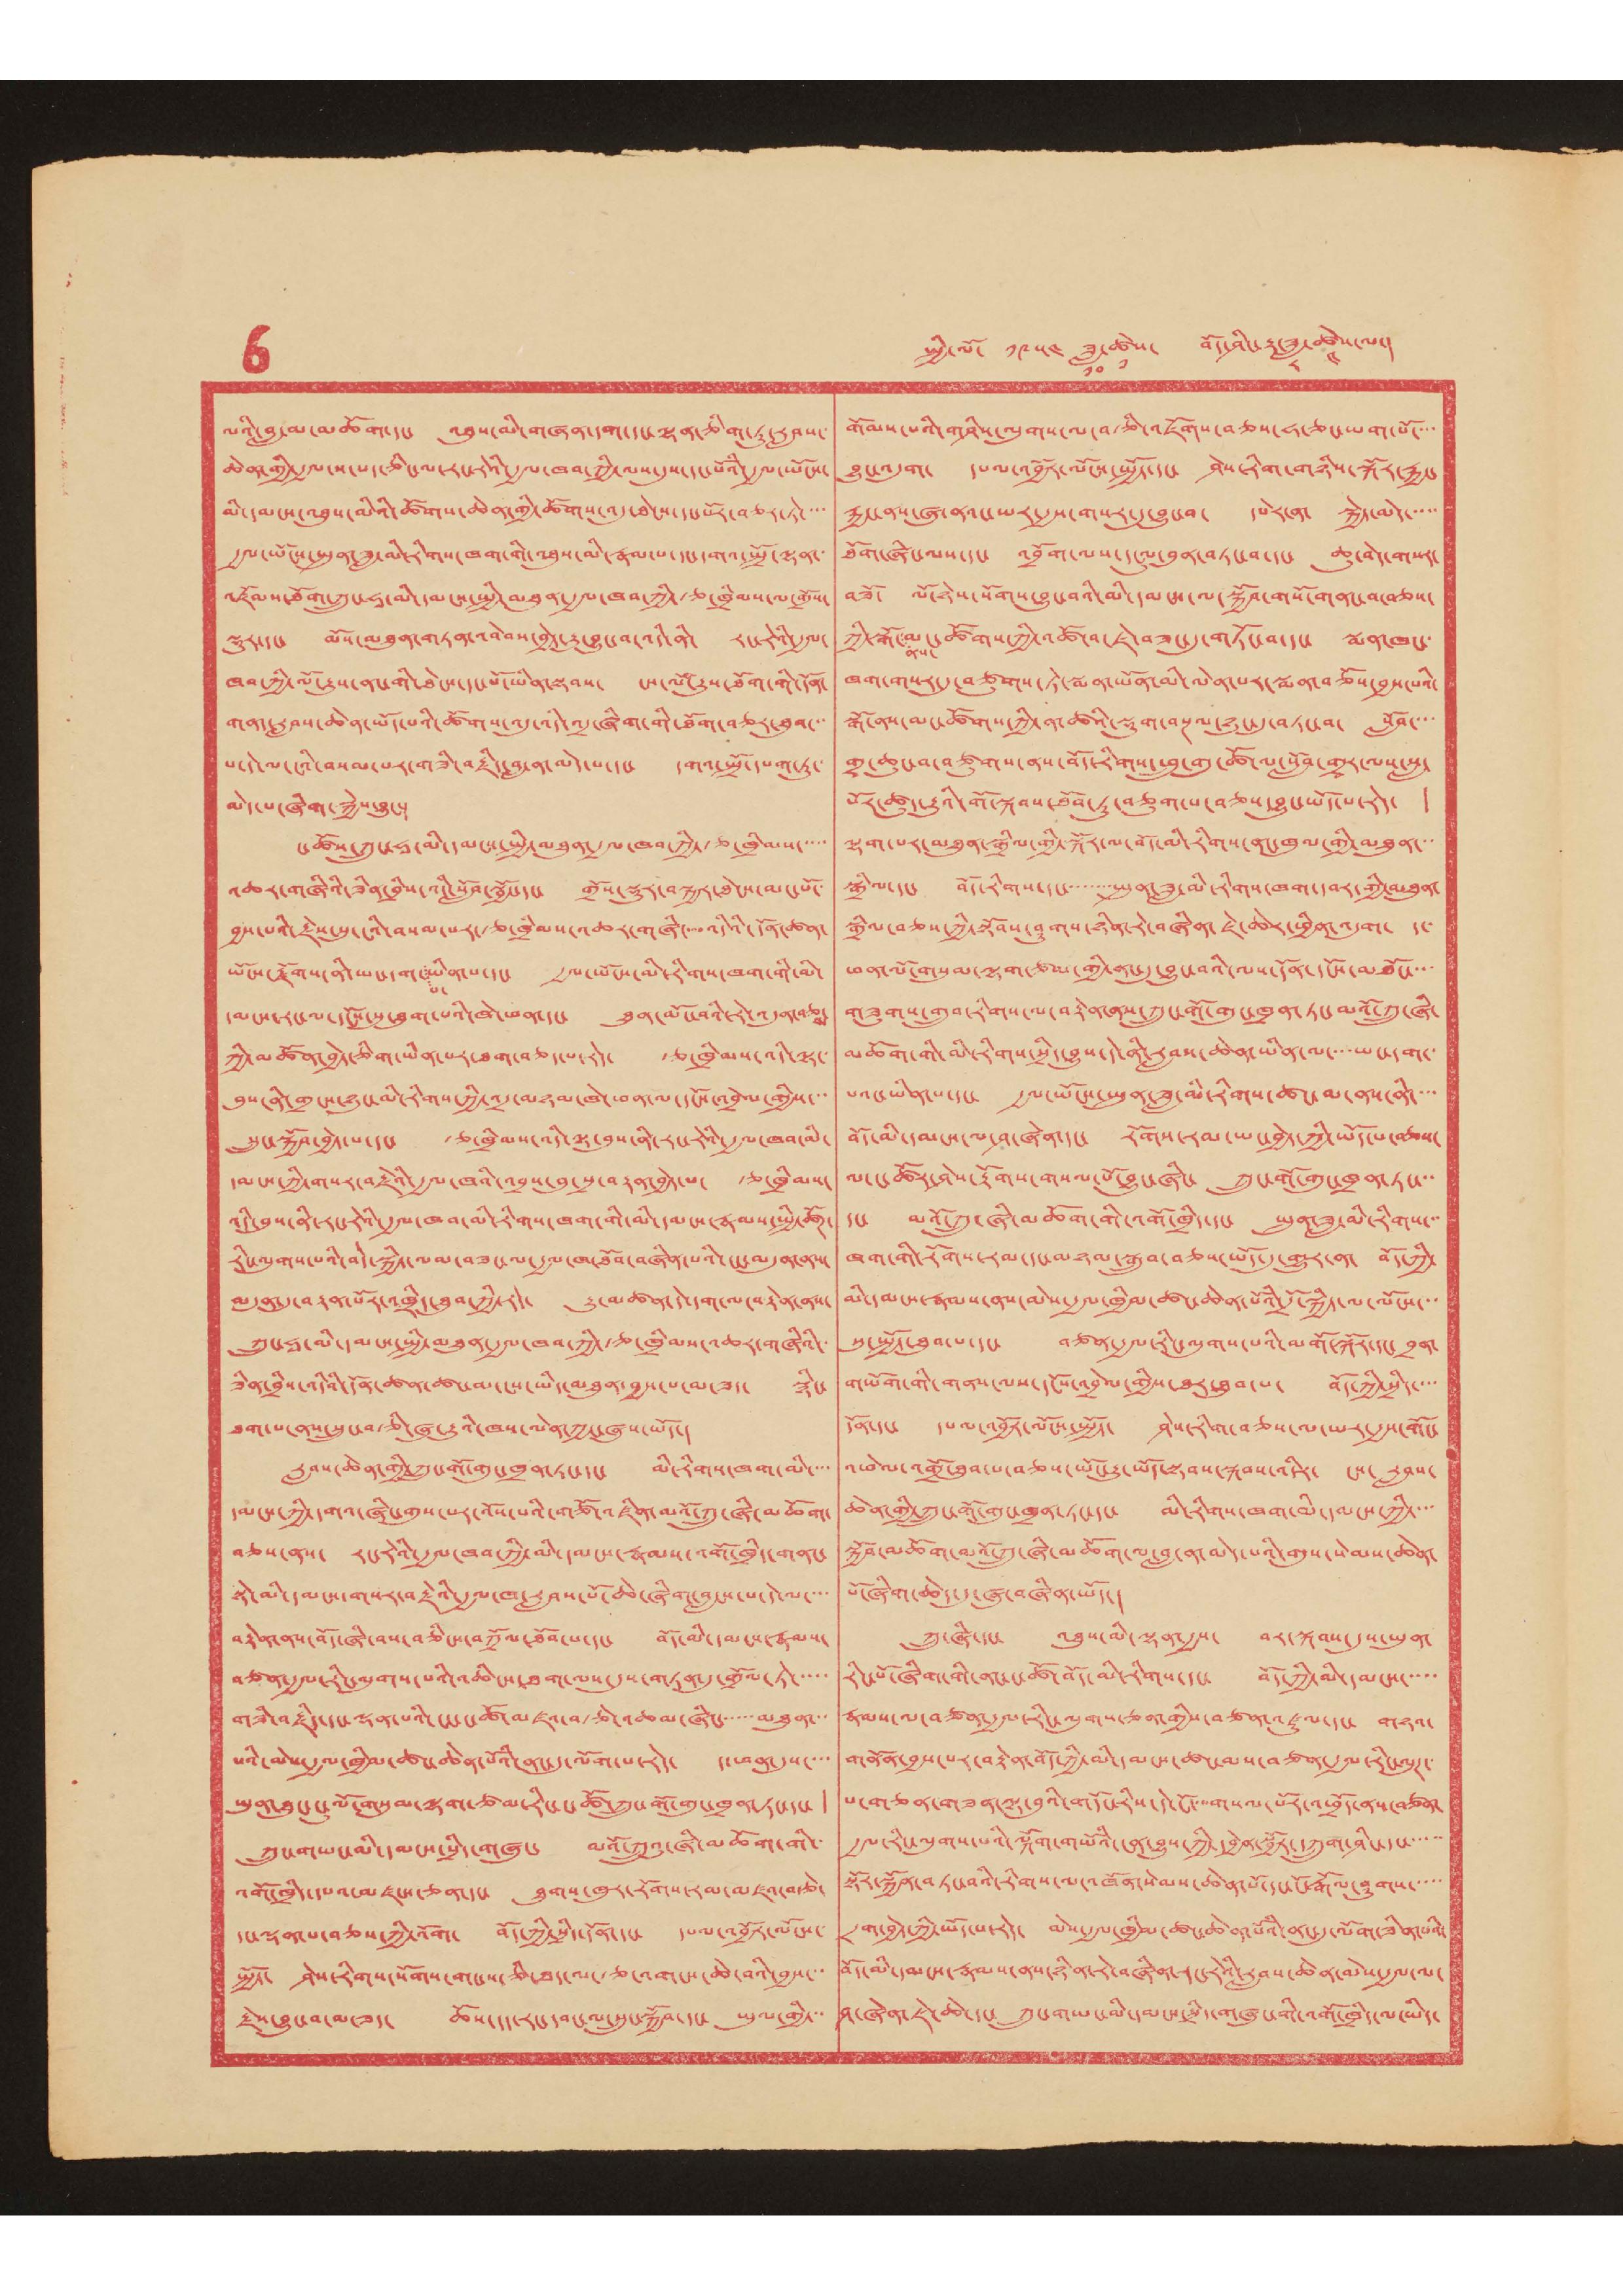6 སྤྱི་ལོ་ ༡༩༥༤ ཟླ་
༡༠
ཚེས་
༡
བོད་ཤིང་རྟ་ཟླ་
༨
ཚེས་
༤
ལ་།
ལའི་བླ་མ་མཆོག་དང་ འཐུས་མི་གཞན་དག་དང་ལྷན་ཅིག་ཏུ་རླབས་
ཆེན་གྱི་རྒྱལ་ས་པད་ཅིང་ལ་རང་རེའི་རྒྱལ་ཁབ་ཀྱི་ལས་དུས་དང་པོའི་རྒྱལ་ཡོངས་
མི་དམངས་འཐུས་མིའི་ཚོགས་ཆེན་གྱི་ཚོགས་འདུ་ཐེངས་དང་པོར་བཅར་ཏེ་་་་
རྒྱལ་ཡོངས་སྤུན་ཟླ་མི་རིགས་ཁག་གི་འཐུས་མི་རྣམ་པ་དང་དགའ་སྤྲོ་ལྷན་
འཛོམས་ཐོག་ཀྲུང་ཧཱ་མི་དམངས་སྤྱི་མཐུན་རྒྱལ་ཁབ་ཀྱི་རྩ་ཁྲིམས་ལ་གྲོས་
སྡུར་དང་ མོས་མཐུན་གཏན་འབེབས་བྱེད་རྒྱུ་བྱུང་བ་འདི་ནི་ རང་རེའི་རྒྱལ་
ཁབ་ཀྱི་ལོ་རྒྱུས་ནང་གི་ཐེངས་དང་པོ་ཡིན་སྟབས་ ངས་ལོ་རྒྱུས་ཐོག་གི་དོན་
གནད་རླབས་ཆེན་ཡོད་པའི་ཚོགས་འདུ་འདི་འདྲ་ཞིག་གི་ཐོག་བཅར་ཐུབ་་་
པ་དེ་ལ་ངའི་བསམ་པར་གཟི་བརྗིད་བླ་ན་མེད་པ་དང་ དགའ་སྤྲོ་དམག་ཏུ་
མེད་པ་ཞིག་སྐྱེས་བྱུང་།
ང་ཚོས་ཀྲུང་ཧཱ་མི་དམངས་སྤྱི་མཐུན་རྒྱལ་ཁབ་ཀྱི་རྩ་ཁྲིམས་་་་་
འཆར་གཞིའི་ཟིན་བྲིས་འདི་སློབ་སྦྱོང་དང་ གྲོས་སྡུར་བསྐྱར་ཐེངས་མང་པོ་
བྱས་པའི་རྗེས་སུ་ངའི་བསམ་པར་རྩ་ཁྲིམས་འཆར་གཞི་་་འདིའི་དོན་ཚན་
ཡོངས་རྫོགས་ནི་ཡང་དག་
པ་
ཡིན་པ་དང་ རྒྱལ་ཡོངས་མི་རིགས་ཁག་གི་མི་
དམངས་རང་ལ་དངོས་སུ་ཐུག་པའི་ཁེ་ཕན་དང་ ཐུན་མོང་བའི་རེ་འདུན་བཅས་
ཀྱི་མཚོན་བྱེད་ཅིག་ཡིན་པར་ཐག་བཅད་པ་རེད་ རྩ་ཁྲིམས་འདི་ལྟ་
བུས་ནི་གྲངས་ཉུང་མི་རིགས་ཀྱི་འདྲ་མཉམ་ཁེ་ཕན་ལ་དངོས་འབྲེལ་གྱིས་་་
སྲུང་སྐྱོབ་བྱེད་པ་དང་ རྩ་ཁྲིམས་འདི་ལྟ་བུས་ནི་རང་རེའི་རྒྱལ་ཁབ་མི་
དམངས་ཀྱི་གསར་བརྗེའི་རྒྱལ་ཁའི་འབྲས་བུ་སྲ་བརྟན་བྱེད་པ་ རྩ་ཁྲིམས་
འདི་བུས་ནི་རང་རེའི་རྒྱལ་ཁབ་མི་རིགས་ཁག་གི་མི་དམངས་རྣམས་སྤྱི་ཚོཊ་
རིང་ལུགས་པའི་བདེ་སྐྱིད་ལམ་བཟང་ལ་རྒྱལ་ཁ་ཐོབ་བཞིན་པའི་ངང་མདུན་ནས་
མདུན་དུ་བརྟན་པོར་འཁྲིད་ཐུབ་ཀྱི་རེད་ རྒྱུ་མཚན་དེ་དག་ལ་བརྟེན་ནས་
ཀྲུང་ཧཱ་མི་དམངས་སྤྱི་མཐུན་རྒྱལ་ཁབ་ཀྱི་རྩ་ཁྲིམས་འཆར་གཞིའི་
ཟིན་བྲིས་འདིའི་དོན་ཚན་ཚང་མ་ངས་ཡིད་མཐུན་བྱས་པ་མ་ཟད་ སྙིང་
ཐག་པ་ནས་སྲུང་བརྩི་ཞུ་རྒྱུའི་ཁས་ལེན་ཀྱང་ཞུས་ཡོད་།
རླབས་ཆེན་གྱི་ཀྲུང་གོ་གུང་ཁྲན་ཏང་དང་ མི་རིགས་ཁག་མི་་་་
དམངས་ཀྱི་དགའ་ཞིང་གུས་པར་འོས་པའི་གཙོ་འཛིན་མའོ་ཀྲུ་ཞི་མཆོག་
བཅས་ནས་ རང་རེའི་རྒྱལ་ཁབ་ཀྱི་མི་དམངས་རྣམས་འགོ་ཁྲིད་གནང་
སྟེ་མི་དམངས་གསར་བརྗེའི་རྒྱལ་ཁ་རླབས་པོ་ཆེ་ཞིག་བླངས་པ་དེ་ལ་་་་
བརྟེན་ནས་བོད་ཞི་བས་བཅིངས་བཀྲོལ་ཐོབ་པ་དང་ བོད་མི་དམངས་རྣམས་
བཙན་རྒྱལ་རིང་ལུགས་པའི་འཆིངས་ཐག་ལས་དུས་གཏན་དུ་གྲོལ་ཏེ་་་་་
གཟི་བརྗིད་དང་ལྡན་པའི་ངང་ང་ཚོ་མཛའ་བརྩེ་འཆམ་ཞིང་་་་་་མཐུན་་་
པའི་མེས་རྒྱལ་ཁྱིམ་ཚང་ཆེན་པོའི་ནང་དུ་ལོག་པ་རེད་ ད་ཕན་དུས་་་་
ཡུན་ཐུང་ངུ་ལོ་གསུམ་ལྷག་ཙམ་རིང་ང་ཚོ་ཀྲུང་གོ་གུང་ཁྲན་ཏང་དང་ །
ཀྲུང་གཡང་མི་དམངས་སྲིད་གཞུང་ མའོ་ཀྲུའུ་ཞི་མཆོག་གི་
འགོ་ཁྲིད་དཔའ་མཛངས་ཅན་དང་ ཐུགས་ཁུར་རོགས་རམ་མཛའ་བརྩེ་
དང་ལྡན་པ་བཅས་ཀྱི་འོག་ བོད་ཀྱི་སྲིད་དོན་དང་ དཔལ་འབྱོར་ལོངས་་
སྤྱོད་ ཤེས་རིགས་སོགས་གང་ས་ཅི་ཐད་ལ་རྩ་འགངས་ཆེ་བའི་བྱས་་་
རྗེས་བྱུང་བ་མ་ཟད་ ཆོས་དད་རང་དབང་ལ་སྲུང་སྐྱོབ་དང་ ཡུལ་གྱི་་་
གོམས་པའི་གཤིས་ལུགས་ལ་བརྩི་འཇོགས་བཅས་ཧ་ཅང་ཡག་པོ་་་་
བྱུང་འདུག་ དཔལ་འབྱོར་ལོངས་སྤྱོད་དང་ ཤེས་རིག་གཉིས་སྐོར་རྐྱང་
རྐྱང་ནས་ཞུ་ནའང་ཡར་རྒྱས་གསར་དུ་བྱུང་བ་ དཔེར་ན་ སྐྱེད་མེ་་་་་
ཐོག་ཞིང་ལས་དང་ འབྲོག་ལས་དངུལ་བུན་བཏང་བ་དང་ ཆུ་བེད་གསར་
བཟོ་ ལོ་ཉེས་སོགས་བྱུང་བའི་མི་དམངས་ལ་སྐྱོབ་གསོ་གནང་བ་བཅས་
ཀྱི་སྒོ་
ནས་
མང་ཚོགས་ཀྱི་འཚོ་བ་ཇེ་བཟང་དུ་གཏོང་བ་དང་ སྨན་ཁང་
ཁག་གསར་དུ་བཙུགས་ཏེ་སྨན་ཡོན་མི་ལེན་པར་སྨན་བཅོས་བྱས་པའི་
སྒོ་ནས་མང་ཚོགས་ཀྱི་ན་ཚའི་སྡུག་བསྔལ་ཉུང་དུ་བཏང་བ་ སློབ་་་་
གྲྭ་ཆུང་བ་བཙུགས་ནས་བོད་རིགས་ཕྲུ་གུ་ཚོ་ལ་སློབ་གྲྭར་ལས་སླ་
པོར་ཚུད་རྒྱུའི་གོ་སྐབས་ཐོབ་ཏུ་བཅུག་པ་བཅས་བྱུང་ཡོད་པ་རེད་ །
ལྷག་པར་མཐུན་སྒྲིལ་གྱི་སྐོར་ལ་བོད་མི་རིགས་ནང་ཁུལ་གྱི་མཐུན་་་
སྒྲིལ་དང་ བོད་རིགས་དང་་་་་་་་སྤུན་ཟླ་མི་རིགས་ཁག་དབར་གྱི་མཐུན་
སྒྲིལ་བཅས་ཀྱི་སྟོབས་ཤུགས་ཉིན་རེ་བཞིན་ཇེ་ཆེར་ཕྱིན་འདུག་ ད་
ཕན་ལོ་གསུམ་ལྷག་ཙམ་གྱི་ནང་དུ་བྱུང་བའི་ལས་དོན་དངོས་མཐོང་་་་
གཟུགས་གྲུབ་རིགས་ལ་བརྟེན་ནས་ཀྲུང་གོ་གུང་ཁྲན་ཏང་མའོ་ཀྲུ་ཞི་
མཆོག་གི་མི་རིགས་སྲིད་བྱུས་དེ་ནི་རླབས་ཆེན་ཡིན་ལ་་་་ཡང་དག་་
པའང་ཡིན་པ་དང་ རྒྱལ་ཡོངས་སྤུན་ཟླ་མི་རིགས་ཚང་མ་ནས་ནི་་་་
བོད་མི་དམངས་ལ་ཤ་ཞེན་དང་ རོགས་རམ་ཡང་བྱེད་ཀྱི་ཡོད་པ་བཅས་
ལ་ང་ཚོར་ཤེས་རྟོགས་གསལ་པོ་བྱུང་ཞིང་ ཀྲུང་གོ་གུང་ཁྲན་ཏང་་་
དང་ མའོ་ཀྲུ་ཞི་མཆོག་གི་འགོ་ཁྲིད་དང་ སྤུན་ཟླ་མི་རིགས་་་
ཁག་གི་རོགས་རམ་དང་མཉམ་སྒྲུབ་བཅས་ཡོད་དུ་གྱུར་ན་ བོད་ཀྱི་
མི་དམངས་རྣམས་ནས་མེས་རྒྱལ་ཁྱིམ་ཚང་ཆེན་པོའི་དྲོ་སྐྱིད་ལ་ལོངས་་་
སུ་སྤྱོད་ཐུབ་པ་དང་ བཙན་རྒྱལ་རིང་ལུགས་པའི་མགོ་སྐོར་དང་ བྲན་
གཡོག་གི་གནས་ལས་དངོས་འབྲེལ་གྱིས་ཐར་ཐུབ་པ་ བོད་ཀྱི་སྲིད་་་་
དོན་དང་ དཔལ་འབྱོར་ལོངས་སྤྱོད་ ཤེས་རིག་བཅས་ལ་ཡར་རྒྱས་གོང་
འཕེལ་འགྲོ་ཐུབ་པ་བཅས་ཡོང་རྒྱུ་ཡོད་སྟབས་སྐབས་འདིར་ ངས་ རླབས་
ཆེན་གྱི་ཀྲུང་གོ་གུང་ཁྲན་ཏང་དང་ མི་རིགས་ཁག་མི་དམངས་ཀྱི་་་་
སྐྱོབ་མཆོག་མའོ་ཀྲུ་ཞི་མཆོག་ལ་བླ་ན་མེད་པའི་གུས་སེམས་ཆེན་
པོ་ཞིག་ཆེད་དུ་ཞུ་བཞིན་ཡོད་།
ཀྲུ་ཞི་དང་ འཐུས་མི་ལྷན་རྒྱས་ བར་སྐབས་དུས་ཡུན་
རིང་པོ་ཞིག་གི་ནང་ང་ཚོ་བོད་རིགས་དང་ བོད་ཀྱི་མི་དམངས་་་་་
རྣམས་ལ་བཙན་རྒྱལ་རིང་ལུགས་ཅན་གྱིས་བཙན་འཛུལ་དང་ གཉའ་
གནོན་བྱས་པར་བརྟེན་བོད་ཀྱི་མི་དམངས་ཚང་མས་བཙན་རྒྱལ་རིང་ལུཊ་
པ་གཅན་གཟན་ལྟ་བུའི་གདོང་རིས་དེ་ངོ་་་་གསལ་པོར་འཕྲོད་ནས་བཙན་
རྒྱལ་རིང་ལུགས་པའི་ལྐོག་གཡོའི་ངན་བྱུས་ཀྱི་དབྱེན་སྦྱོར་དཀྲུག་ཤིང་དང་་་་་་
སྟོར་སྐྱོན་བཏང་བའི་རིགས་ལ་འཁོན་སེམས་ཆེན་པོ་དང་ངོ་རྒོལ་ཤུགས་་་་་
དྲག་བྱེད་ཀྱི་ཡོད་པ་རེད་ མེས་རྒྱལ་ཁྱིམ་ཚང་ཆེན་པོའི་ནང་དུ་ལོག་ཟིན་པའི་
བོད་མི་དམངས་རྣམས་ནས་ཉིན་རེ་བཞིན་རང་རེའི་རླབས་ཆེན་མེས་རྒྱལ་ལ་
ཤ་ཞེན་ཇེ་ཆེ་དང་ ཀྲུང་གཡང་མི་དམངས་སྲིད་གཞུང་གི་འགོ་ཁྲིད་ལ་ཡིད་
